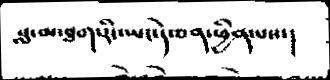བླ་མ་ཐག་རིང་ཡང་དེ་ཅན་ཕྱིན་པས་།
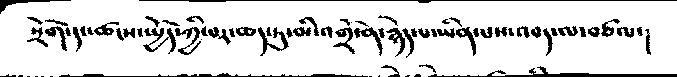སྲོག་དང་ཚངས་སྤྱོད་ཀྱི་བར་ཆད་ཏུ་མ་འགྲོ་ན་རྙེད་པ་ཡིན་པས་འབད་ལ་བཙལ་།
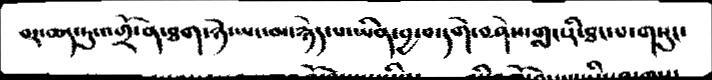བར་ཆད་ཏུ་འགྲོ་ན་ཐག་ཉེ་ཡང་མ་རྙེད་པ་ཡིན་བྱ་བ་དགེ་བཤེས་གླང་རི་ཐང་པ་གསུང་
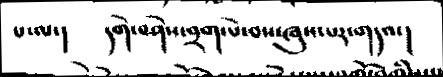པ་ལ་།   དགེ་བཤེས་བྲག་པེ་བས་ཞུས་པར་གདའ་།
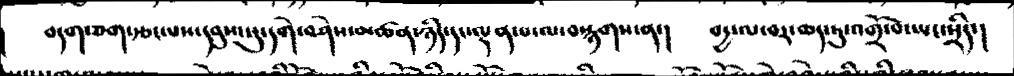།  བདག་ཅག་རྩང་པས་དབུས་སུ་དགེ་བཤེས་མཚན་ཉིད་དང་ལྡན་པ་ལ་བསྙགས་ན་།  བདྱ་ལ་བར་ཆད་ཏུ་འགྲོ་བ་ཡང་སྲིད་།
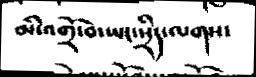མི་འགྲོ་བ་ཡང་སྲིད་ལགས་
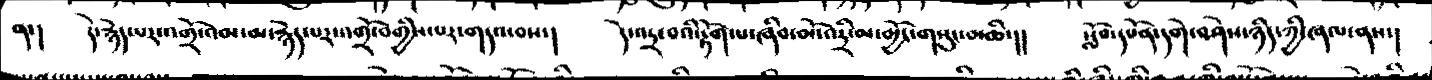ན་། དེ་རྙེད་པར་འགྲོ་འམ་མ་རྙེད་པར་འགྲོ་བགྱིས་པར་གདའ་བས་།  དེ་འདྲ་བའི་རྟོག་པ་ཞིབ་མོ་འདྲི་མ་མྱིང་གསུང་མཆི་།།  སློབ་དཔོན་དགེ་བཤེས་ཉིད་ཀྱི་ཞལ་ནས་།
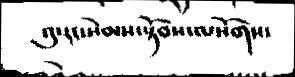འུ་རང་སེམས་སྟོབས་ལསོགས་
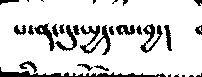པ་ནང་དུ་སྤྱད་མ་བྱ་།
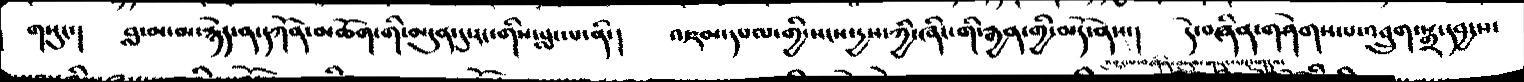གསུང་།  བླ་མ་མ་རྙེད་ན་དཀོན་མཆོག་གི་མདུན་དུ་རང་གིས་སླང་པ་ནི་།  འཇམ་དཔལ་གྱི་སངས་དྱས་ཀྱི་ཞིང་གི་རྒྱན་གྱི་མདོ་ནས་།  དེ་བཞིན་གཤེགས་པ་འབྲུག་སྒྲ་དབྱངས་
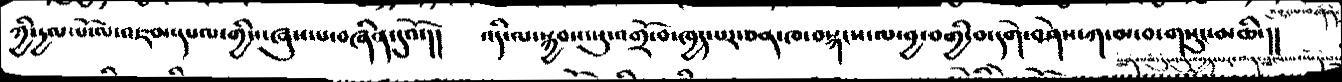ཀྱི་རྱལ་པོ་ལ་འཇམ་དཔལ་གྱིས་ཞུས་པ་བཞིན་དུའོ་།།    འདི་ལ་སྐྱབས་སུ་འགྲོ་བ་ཁྱད་པར་ཅན་ཁ་བསྐངས་ལ་བྱ་བགྱི་བ་དགེ་བཤེས་ཀ་མ་བ་གསུང་མཆི།།
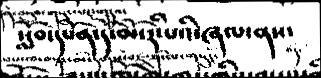སློབ་དཔོན་དོ་མོ་རི་པའི་ཞལ་ནས་
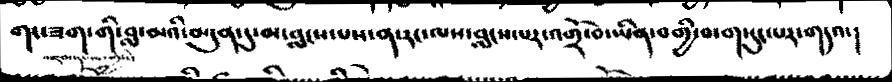གང་ཟག་གི་བླ་མའི་མདུན་དུ་མ་བླངས་པས་ན་རང་ལས་བླངས་པར་འགྲོ་བ་ཡིན་བགྱི་བ་གསུང་པར་གདའ་།
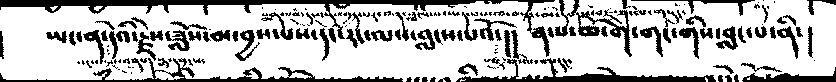ཡང་ན་དེའི་རྗེས་ཟློས་མ་བྱས་པས་དང་རང་ལས་བླངས་པའོ་།།   ན་པ་ཆ་གེ་གང་གིས་བླང་པ་ནི་།
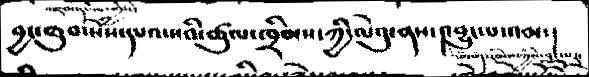བྱང་ཆུབ་སེཾས་དཔའ་སའི་ཚུལ་ཁྲིམས་ཀྱི་ལེའུ་ནས་འབྱུང་པ་འམ་།
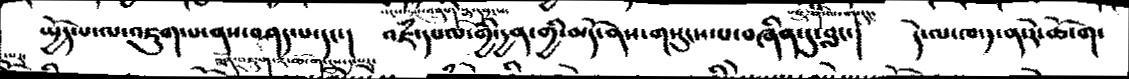སྤྱོད་པ་ལ་འཇུག་པ་ནས་བཤད་པ་དང་།  འཇཾ་དཔལ་གྱི་དྱན་གྱི་མདོ་ནས་གསུངས་པ་བཞིན་དུ་བླང་།  དེ་ལ་ཁ་༡་ན་རེ་ཆོ་ག་
